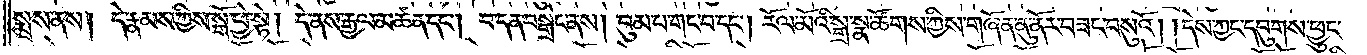སྨྲས་ནས། དེ་རྣམས་ཀྱིས་སྒོ་ཕྱེ་སྟེ། དེ་ནས་རྒྱལ་མཚན་དང༌། བ་དན་བསྒྲེང་ནས། བུམ་པ་གང་བ་དང༌། རོལ་མོའི་སྒྲ་སྣ་ཚོགས་ཀྱིས་གཞོན་ནུ་ནོར་བཟང་བསུའོ། །དེས་ཀྱང་དབུགས་ཕྱུང་
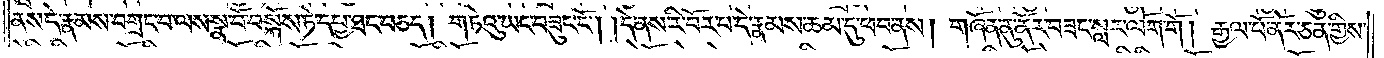ནས་དེ་རྣམས་བགྲང་བ་ལས་སྣ་བོ་བསྐོས་ཏེ་དཔྱ་ཐང་བཅད། གཏེའུ་ཡང་བཟུང་ངོ༌། །དེ་ནས་རི་བོར་པ་དེ་རྣམས་ཆམ་དུ་ཕབ་ནས། གཞོན་ནུ་ནོར་བཟང་སླར་ལོག་གོ། རྒྱལ་པོ་ནོར་ཅན་གྱིས་
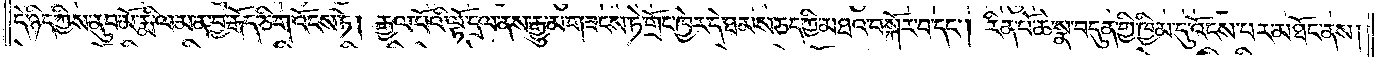དེ་ཉིད་ཀྱིས་ནུབ་མོ་རྨི་ལམ་ན་བྱ་རྒོད་ཅིག་འོངས་ཏེ། རྒྱལ་པོའི་ལྟོ་དྲལ་ནས་རྒྱུ་མ་གཟངས་ཏེ་གྲོང་ཁྱེར་དེ་ཐམས་ཅད་ཀྱི་མཐའ་བསྐོར་བ་དང༌། རིན་པོ་ཆེ་སྣ་བདུན་གྱི་ཁྱིམ་དུ་འོངས་པར་མཐོང་ནས།
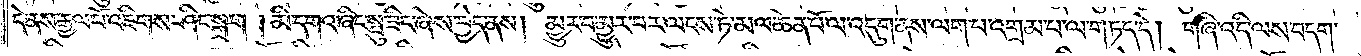དེ་ནས་རྒྱལ་པོ་འཇིགས་ཤིང་སྐྲག །མི་དགའ་ཞིང་སྤུ་ཟིང་ཞེས་བྱེད་ནས། མྱུར་བ་མྱུར་བར་ལངས་ཏེ་མལ་ཆེན་པོ་ལ་འདུག་ནས་ལག་པ་འགྲམ་པ་ལ་གཏད་དེ། གཞི་འདི་ལས་བདག་
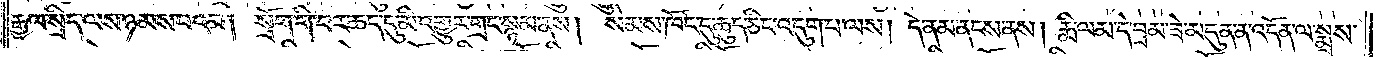རྒྱལ་སྲིད་ལས་ཉམས་པའམ། སྲོག་གི་བར་ཆད་དུ་མི་འགྱུར་གྲང་སྙམ་ནས། སེམས་ཁོང་དུ་ཆུད་ཅིང་འདུག་པ་ལས། དེ་ནམ་ནངས་ནས། རྨི་ལམ་དེ་བྲམ་ཟེ་མདུན་ན་འདོན་ལ་སྨྲས་
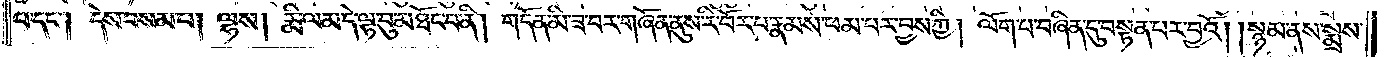པ་དང༌། དེས་བསམ་པ། ལྷས། རྨི་ལམ་དེ་ལྟ་བུ་མཐོང་བ་ནི། གདོན་མི་ཟ་བར་གཞོན་ནུས་རི་བོར་པ་རྣམས་ཕམ་པར་བྱས་ཀྱི། ལོག་པ་བཞིན་དུ་བསྟན་པར་བྱའོ། །སྙམ་ནས་སྨྲས་
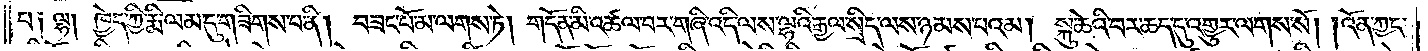པ༑ ལྷ། ཁྱེད་ཀྱི་རྨི་ལམ་དུ་གཟིགས་པ་ནི། བཟང་པོ་མ་ལགས་ཏེ། གདོན་མི་འཚལ་བར་གཞི་འདི་ལས་ལྷའི་རྒྱལ་སྲིད་ལས་ཉམས་པའམ། སྐུ་ཚེའི་བར་ཆད་དུ་འགྱུར་ལགས་སོ། །འོན་ཀྱང་
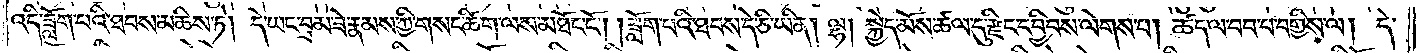འདི་ཟློག་པའི་ཐབས་མཆིས་ཏེ། དེ་ཡང་བྲམ་ཟེ་རྣམས་ཀྱི་གསང་ཚིག་ལས་མཐོང་ངོ༌། །ཟློག་པའི་ཐབས་དེ་ཅི་ཡིན། ལྷ། སྐྱེད་མོས་ཚལ་དུ་རྫིང་དབྱིབས་ལེགས་པ། ཚད་ལ་བབ་པ་བགྱིས་ལ། དེ་
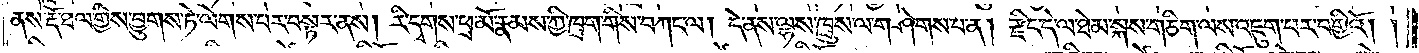ནས་རྡོ་ཐལ་གྱིས་བྱུགས་ཏེ་ལེགས་པར་བསྟར་ནས། རི་དྭགས་ཕྲ་མོ་རྣམས་ཀྱི་ཁྲག་གིས་བཀང་ལ། དེ་ནས་ལྷས་ཁྲུས་ལ་གཤེགས་པ་ན། རྫིང་དེ་ལ་ཐེམ་སྐས་གཅིག་ལས་འཇུག་པར་བགྱིའོ། །
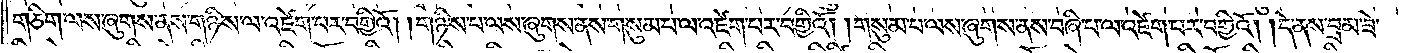གཅིག་ལས་ཞུགས་ནས་གཉིས་ལ་འཛེག་པར་བགྱིའོ། །གཉིས་པ་ལས་ཞུགས་ནས་གསུམ་པ་ལ་འཛེག་པར་བགྱིའོ། །གསུམ་པ་ལས་ཞུགས་ནས་བཞི་པ་ལ་འཛེག་པར་བགྱིའོ། །དེ་ནས་བྲམ་ཟེ་
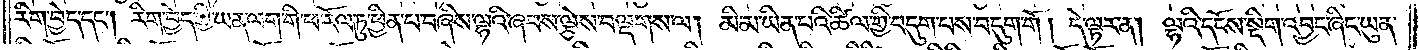རིག་བྱེད་དང༌། རིག་བྱེད་ཀྱི་ཡན་ལག་གི་ཕ་རོལ་ཏུ་ཕྱིན་པ་བཞིས་ལྷའི་ཞབས་ལྕེས་བལྡགས་ལ། མི་མ་ཡིན་པའི་ཚིལ་གྱི་བདུག་པས་བདུག་གོ། དེ་ལྟར་ན། ལྷའི་དངོས་སྡིག་འབྱང་ཞིང་ཡུན་
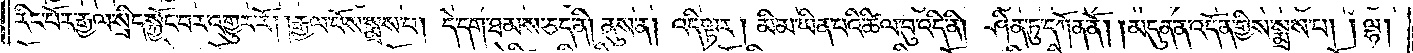རིང་པོར་རྒྱལ་སྲིད་སྐྱོང་བར་འགྱུར་རོ། །རྒྱལ་པོས་སྨྲས་པ། དེ་དག་ཐམས་ཅད་ནི། ནུས་ན། འདི་ལྟར། མི་མ་ཡིན་པའི་ཚིལ་བུ་འདི་ནི། ཤིན་ཏུ་དཀོན་ནོ། །མདུན་ན་འདོན་གྱིས་སྨྲས་པ། །ལྷ།
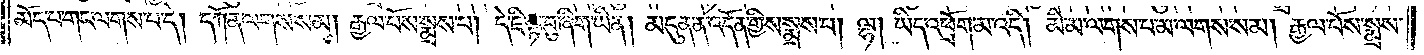མོད་པ་གང་ལགས་པ་དེ། དཀོན་ལགས་སམ། རྒྱལ་པོས་སྨྲས་པ། དེ་ཇི་ལྟ་བུ་ཞིག་ཡིན། མདུན་ན་འདོན་གྱིས་སྨྲས་པ། ལྷ། ཡིད་འཕྲོག་མ་འདི། མི་མ་ལགས་པ་མ་ལགས་སམ། རྒྱལ་པོས་སྨྲས་
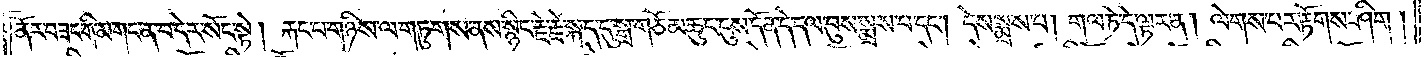ནོར་བཟང་གི་མ་གང་ན་བ་དེར་སོང་སྟེ། རྐང་པ་གཉིས་ལ་གཏུགས་ནས་སྙིང་རྗེ་རྗེ་སྐད་དུ་སྒྲ་གཅོམ་ཆུང་ངུས་དོན་དེ་དལ་བུས་སྨྲས་པ་དང༌། དེས་སྨྲས་པ། གལ་ཏེ་དེ་ལྟར་ན། ལེགས་པར་རྟོགས་ཤིག།
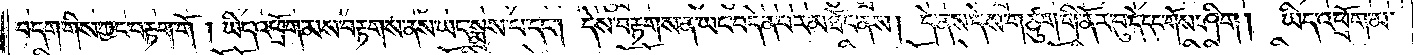བདག་གིས་ཀྱང་བརྟག་གོ། ཡིད་འཕྲོག་མས་བརྟགས་ནས་ཡང་སྨྲས་པ་དང༌། དེས་བརྟགས་ན་ཡང་བདེན་པར་མཐོང་ནས། དེ་ནས་དེས་གཙུག་གི་ནོར་བུ་དེ་དང་གོས་ཤིག། ཡིད་འཕྲོག་མ་
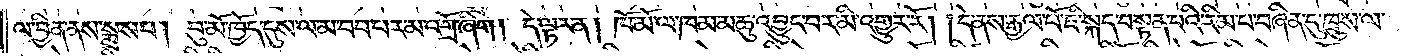ལ་བྱིན་ནས་སྨྲས་པ། བུ་མོ་ཁྱོད་དུས་ལ་མ་བབ་པར་མ་འགྲོ་ཞིག། དེ་ལྟར་ན། ཁོ་མོ་ལ་ཁམ་མཆུ་འབྱུང་བར་མི་འགྱུར་རོ་།དེ་ནས་རྒྱལ་པོ་ཇི་སྐད་བསྟན་པའི་རིམ་པ་བཞིན་དུ་ཁྲུས་ལ་
